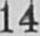14
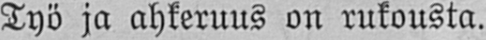Työ ja ahkeruus on rukousta.
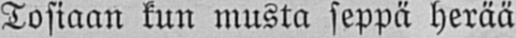Tosiaan kun musta seppä herää
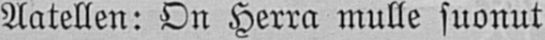Aatellen: On Herra mulle suonut
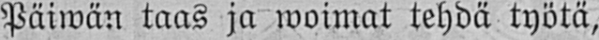Päiwän taas ja woimat tehdä työtä,
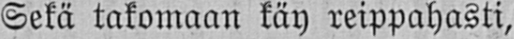Sekä takomaan käy reippahasti,
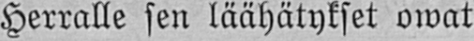Herralle sen läähätykset owat
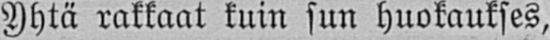Yhtä rakkaat kuin sun huokaukses,
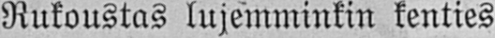Rukoustas lujemminkin kenties
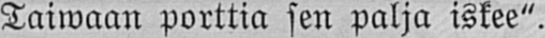Taiwaan porttia sen palja iskee".
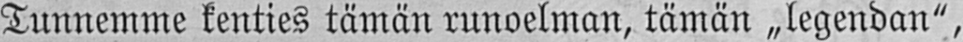Tunnemme kenties tämän runoelman, tämän „legendan",
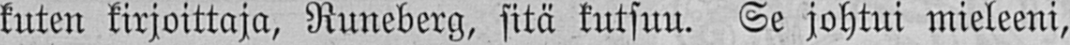kuten kirjoittaja, Runeberg, sitä kutsuu. Se johtui mieleeni,
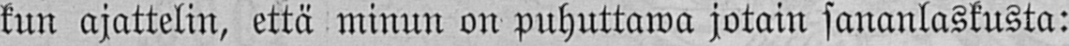kun ajattelin, että minun on puhuttawa jotain sananlaskusta:
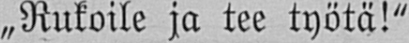„Rukoile ja tee työtä!"
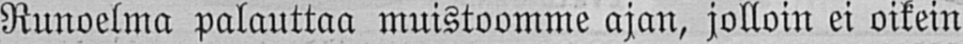Runoelma palauttaa muistoomme ajan, jolloin ei oikein
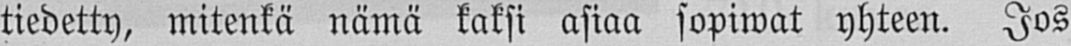tiedetty, mitenkä nämä kaksi asiaa sopiwat yhteen. Jos
